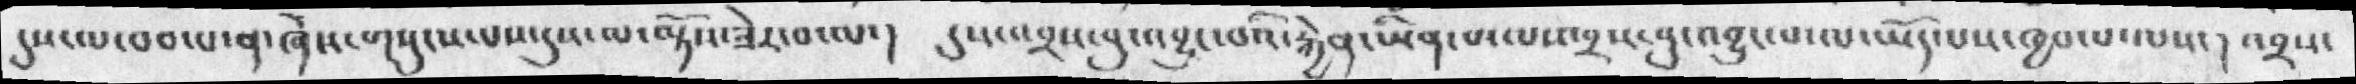དུས་ལ་བབ་པ་ན་ཞེས་གསུངས་པས་དུས་ལ་ལྟོས་ཟེར་བ་ལ་།  དུས་འབྲས་བུ་འབྱུང་བའི་རྐྱེན་ཡིན་པ་ལས་འབྲས་བུ་འབྱུང་བ་ལ་ཡོད་པས་ཁྱབ་པ་ལས་། འབྲས་
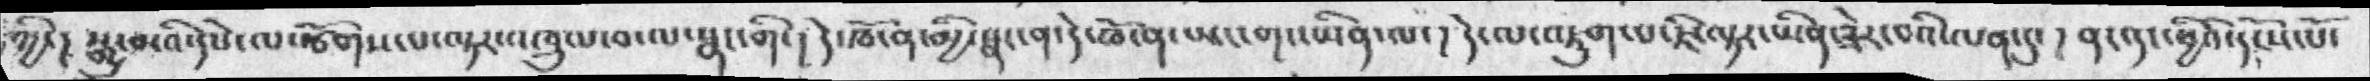ཀྱི་། སྒྱུ་མའི་དཔེ་ལསྩོགས་པ་ལྟར་འཁྲུལ་བ་ལ་སྣང་གི་། དེ་ཁོ་ན་མྱི་སྣང་ན་དེ་ཁོ་ན་ཡང་གང་ཡིན་ལ་།  དེ་ལ་འཇུག་པ་ཇི་ལྟར་ཡིན་ཟེར་བའི་ལན་དུ་། ནང་དང་ཕྱིའི་དངོས་པོ་
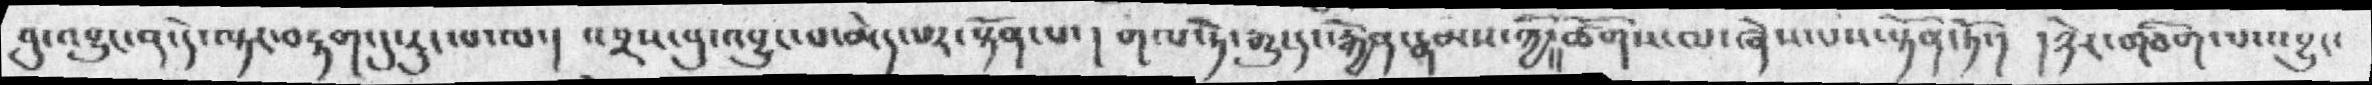བུ་འབྱུང་ན་དེ་ལྟར་བརྟག་དུ་རུང་པ་ལ་།  འབྲས་བུ་འབྱུང་བ་མེད་པར་སྟོན་པ་། གལ་ཏེ་རྒྱུ་དང་རྐྱེན་རྣམས་ཀྱི་ཚོགས་ལ་ཞེས་པས་སྟོན་ནོ་།  །ཉེར་གཅིག་པ་འབྱུང་
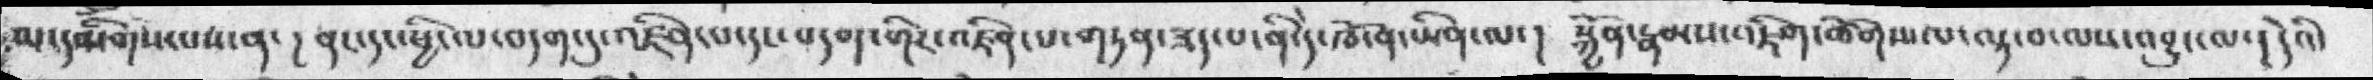མ་དམིགས་པས་ན་། བང་དང་ཕྱི་ལ་བདག་དུ་འཛིན་པ་དང་བདག་གིར་འཛིན་པ་གཏན་ཟད་པ་ནི་དེ་ཁོ་ན་ཡིན་ལ་།  སྐྱོན་རྣམས་འཇིག་ཚོགས་ལ་ལྟ་བ་ལས་འབྱུང་ལ་། དེའི་
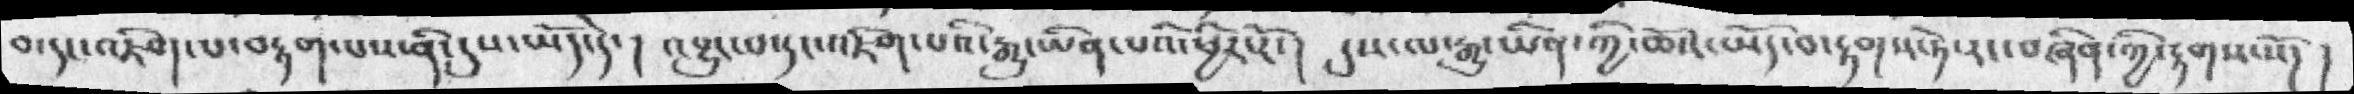བ་དང་འཇིག་པ་བརྟག་པས་ནི་དུས་ཡོད་དེ་།  འབྱུང་བ་དང་འཇིག་པའི་རྒྱུ་ཡིན་པའི་ཕྱིར་རོ་།  དུས་ལ་རྒྱུ་ཡིན་ཀྱི་ཆོས་ཡདོ་བ་རྟགས་ཏེ་རང་བཞིན་ཀྱི་རྟགས་སོ་། །
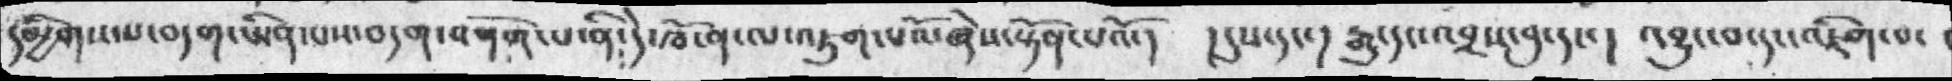དམྱིགས་པ་བདག་ཡིན་པས་བདག་འགོག་པ་ནི་དེ་ཁོ་ན་ལ་འཇུག་པའོ་ཞེས་སྟོན་པའོ་།  །དུས་དང་། རྒྱུ་དང་འབྲས་བུ་དང་། འབྱུང་བ་དང་འཇིག་པ་
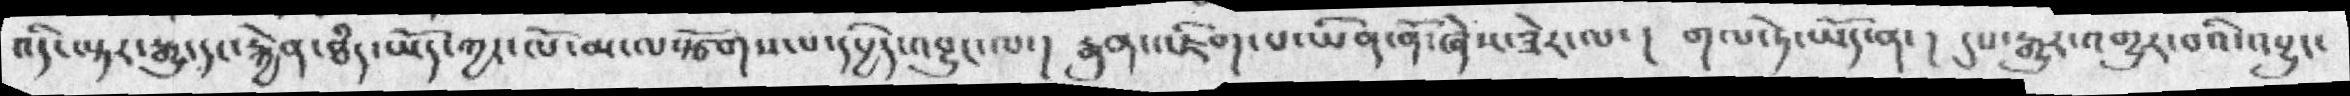འདི་ལྟར་རྒྱུ་རྐྱེན་ཐཾད་ཡོད་ཀྱང་ལོ་མ་ལསྩོགས་པ་དཔྱིད་འབྱུང་ལ་། རྒྱུན་འཇིག་པ་ཡིན་ནོ་ཞེས་ཟེར་ལ་། གལ་ཏེ་རྒྱུར་འགྱུར་བའི་འབྱུང་
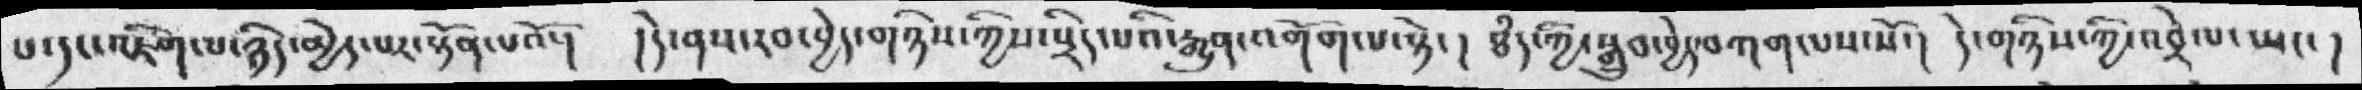པ་དང་འཇིག་པ་ཉིད་མྱེད་པར་སྟོན་པའོ་།  །དེ་ནས་རབ་བྱེད་གཉིས་ཀྱིས་སྲིད་པའི་རྒྱུན་འགོག་པ་སྟེ་། ཐཾད་ཀྱི་སྒྲུབ་བྱེད་བཀག་པས་སོ་། དེ་གཉིས་ཀྱི་འབྲེལ་ཡང་།
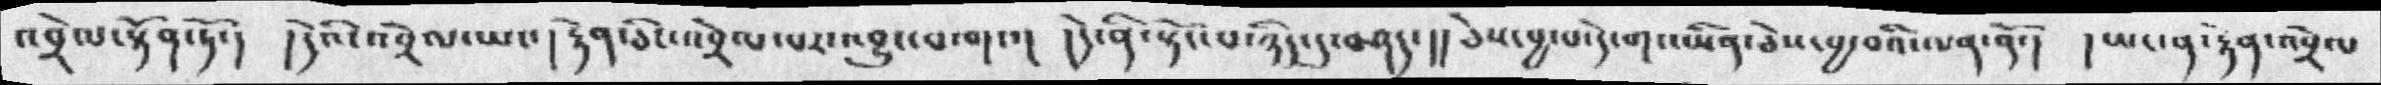འབྲེལ་སྟོན་ཏོ་།  །དེའི་འབྲེལ་ཡང་། རྟེན་ཅིང་འབྲེལ་པར་འབྱུང་བ་གང་། །དེ་ནི་སྟོང་པ་ཉིད་དུ་བཤད་། །ཅེས་བྱ་བ་དེ་གང་ཡིན་ཅེས་བྱ་བའི་ལན་ནོ་། །ཡང་ན་རྟེན་འབྲེལ
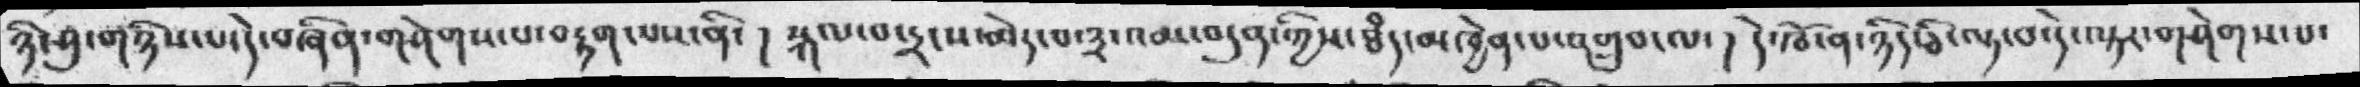ཉི་ཤུ་གཉིས་པ་དེ་བཞིན་གཤེགས་པ་བརྟག་པས་ནི་། སྐལ་བ་དྲངས་མེད་པ་༣་འམ་བདུན་ཀྱིས་ཐཾད་མཁྱེན་པ་འགྲུབ་ལ་།  དེ་ཁོ་ན་ཉིད་ཅི་ལྟ་བ་དེ་ལྟར་གཤེགས་པ་
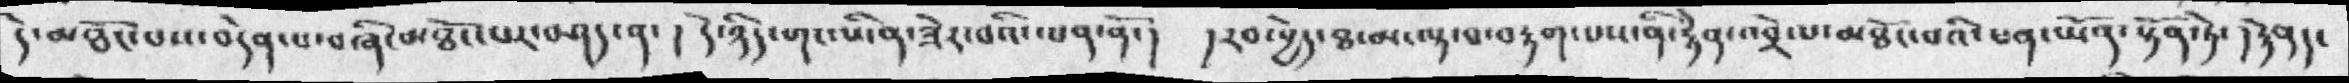དེ་མཐོང་པས་བདེན་པ་བཞི་མཐོང་པར་བཤད་ན་། དེ་ཉིད་གང་ཡིན་ཟེར་བའི་ལན་ནོ་། །རབ་བྱེད་ཐ་མ་ལྟ་བ་བརྟག་པས་ནི་རྟེན་འབྲེལ་མཐོང་བའི་ཕན་ཡོན་སྟོན་ཏེ་། རྟེནད་
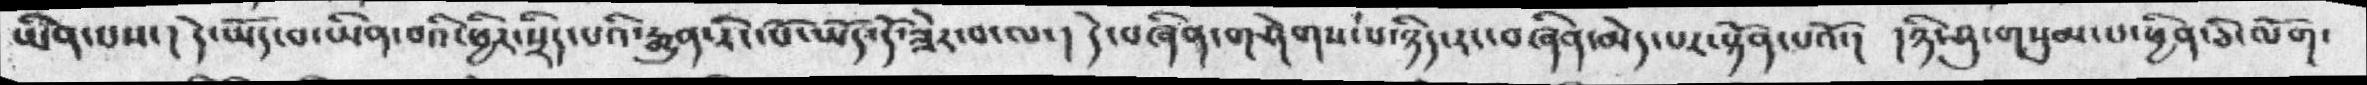ཡིན་པས་། དེ་ཡོད་བ་ཡིན་པའི་ཕྱིར་སྲིད་པའི་རྒྱུན་རིང་པོ་ཡོད་དོ་ཟེར་བ་ལ་། དེ་བཞིན་གཤེགས་པ་ཉིད་རང་བཞིན་མེད་པར་སྟོན་པའོ་། །ཉི་ཤཱུ་གསུམ་པ་ཕྱིན་ཅི་ལོག་
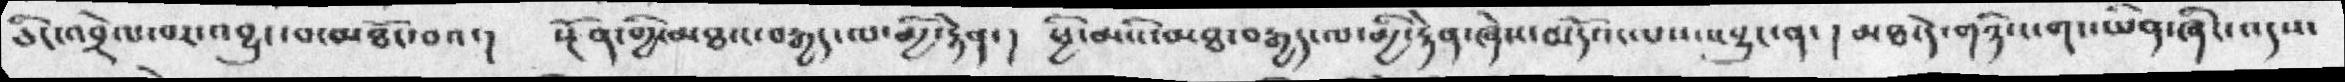ཅིང་འབྲེལ་པར་འབྱུང་བ་མཐོང་བའང་།  སྔོན་གྱི་མཐའ་རྒྱད་ལ་མྱི་རྟེན་། ཕྱི་མའི་མཐ་བརྒྱད་ལ་མྱི་རྟེན་ཞེས་མདོའ་ལས་འབྱུང་ན་། མཐ་དེ་གཉིས་གང་ཡིན་ཞིང་འདས་
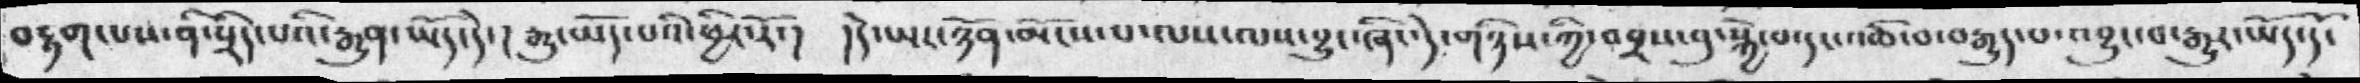བརྟག་པས་ནི་སྲིད་པའི་རྒྱུན་ཡོད་དེ་། རྒྱུ་ཡོད་པའི་ཕྱིར་རོ་། །དེ་ཡང་ཉོན་མོངས་པ་ལས་ལས་བྱུང་ཞིང་དེ་གཉིས་ཀྱི་འབྲས་བུ་སྐྱེ་བ་དང་འཆི་བ་བརྒྱུད་པ་འབྱུང་བ་རྒྱུར་ཡོད་དོ་
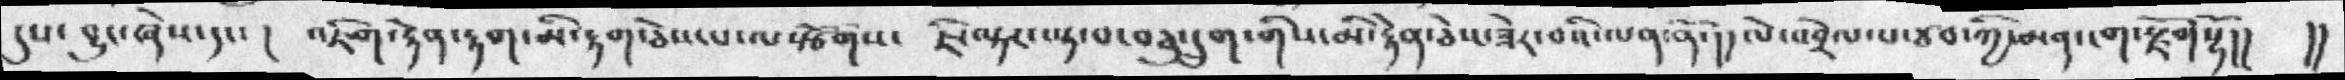དུས་བྱང་ཞེས་དང་།  འཇིག་རྟེན་རྟག་མི་རྟག་ཅེས་པ་ལསྩོགས་  ཇི་ལྟར་ལྟ་བ་བཅུ་དྲུག་གིས་མི་རྟེན་ཅེས་ཟེར་བའི་ལན་ན་ོ། །ལེ་འབྲེལ་བ་ཙབ་ཀྱི་མན་ངག་རྫོགསྷོ་།།  །།
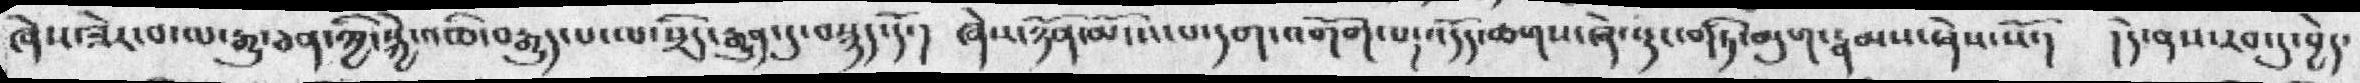ཞེས་ཟེར་བ་ལ་རྒྱུ་ཅན་ཀྱི་སྐྱེ་འཆི་བརྒྱུད་པ་ལ་སྲིད་རྒྱུན་དུ་བསྙད་དོ་། ཞེས་ཉོན་མོངས་པ་དག་འགོག་པ་འདོད་ཆགསཞེ་སྡང་གཏི་མུག་རྣམས་ཞེས་སོ་། །དེ་ནས་རབ་དུ་བྱེད་
